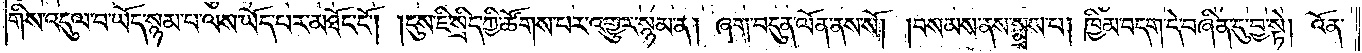གིས་འདུལ་བ་ཡོད་སྙམ་པ་ལས་ཡོད་པར་མཐོང་ངོ༌། །དུས་ཇི་སྲིད་ཀྱི་ཚོགས་པར་འགྱུར་སྙམ་ན། ཞག་བདུན་ལོན་ནས་སོ། །བསམས་ནས་སྨྲས་པ། ཁྱིམ་བདག་དེ་བཞིན་དུ་བྱ་སྟེ། འོན་
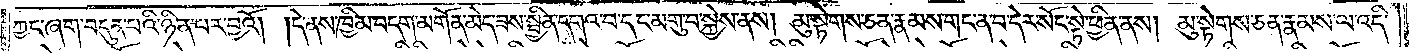ཀྱང་ཞག་བདུན་པའི་ཉིན་པར་བྱའོ། །དེ་ནས་ཁྱིམ་བདག་མགོན་མེད་ཟས་སྦྱིན་དགའ་བ་དང་མགུ་བ་སྐྱེས་ནས། མུ་སྟེགས་ཅན་རྣམས་གང་ན་བ་དེར་སོང་སྟེ་ཕྱིན་ནས། མུ་སྟེགས་ཅན་རྣམས་ལ་འདི་
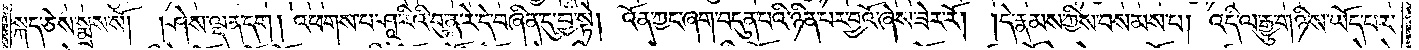སྐད་ཅེས་སྨྲས་སོ། །ཤེས་ལྡན་དག །འཕགས་པ་ཤཱ་རིའི་བུ་ན་རེ་དེ་བཞིན་དུ་བྱ་སྟེ། འོན་ཀྱང་ཞག་བདུན་པའི་ཉིན་པར་བྱའོ་ཞེས་ཟེར་རོ། །དེ་རྣམས་ཀྱིས་བསམས་པ། འདི་ལ་རྒྱུ་གཉིས་ཡོད་པར་
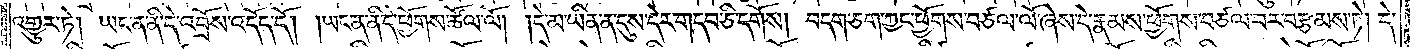འགྱུར་ཏེ། ཡང་ན་ནི་དེ་འབྲོས་འདོད་དོ། །ཡང་ན་ནི་དེ་ཕྱོགས་ཚོལ་ལོ། །དེ་མ་ཡིན་ན་དུས་དེར་གདབ་ཅི་དགོས། བདག་ཅག་ཀྱང་ཕྱོགས་བཙལ་ལོ་ཞེས་དེ་རྣམས་ཕྱོགས་བཙལ་བར་བརྩམས་ཏེ། དེ་
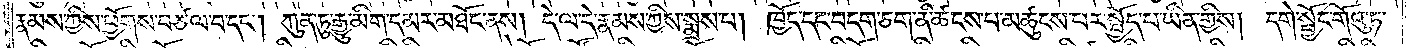རྣམས་ཀྱིས་ཕྱོགས་བཙལ་བ་དང༌། ཀུན་ཏུ་རྒྱུ་མིག་དམར་མཐོང་ནས། དེ་ལ་དེ་རྣམས་ཀྱིས་སྨྲས་པ། ཁྱོད་དང་བདག་ཅག་ནི་ཚངས་པ་མཚུངས་པར་སྤྱོད་པ་ཡིན་གྱིས། དགེ་སྦྱོང་གོའུ་ཏ་
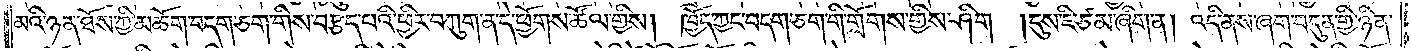མའི་ཉན་ཐོས་ཀྱི་མཆོག་བདག་ཅག་གིས་བརྩད་པའི་ཕྱིར་བཀུག་ན་དེ་ཕྱོགས་ཚོལ་གྱིས། ཁྱོད་ཀྱང་བདག་ཅག་གི་གྲོགས་གྱིས་ཤིག །དུས་ཇི་ཙམ་ཞིག་ན། འདི་ནས་ཞག་བདུན་གྱི་ཉིན་
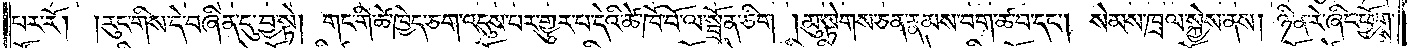པར་རོ། །རུང་གིས་དེ་བཞིན་དུ་བྱ་སྟེ། གང་གི་ཚེ་ཁྱེད་ཅག་འདུས་པར་གྱུར་བ་དེའི་ཚེ་ཁོ་བོ་ལ་སྦྲོན་ཅིག །མུ་སྟེགས་ཅན་རྣམས་བག་ཚ་བ་དང༌། སེམས་ཁྲལ་སྐྱེས་ནས། ཉིན་རེ་ཞིང་ཕྱོགས་
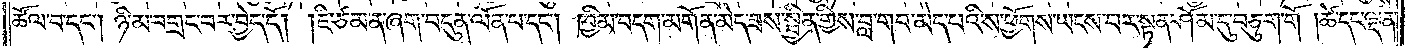ཚོལ་བ་དང༌། ཉི་མ་བགྲང་བར་བྱེད་དོ། །ཇི་ཙམ་ན་ཞག་བདུན་ལོན་པ་དང༌། ཁྱིམ་བདག་མགོན་མེད་ཟས་སྦྱིན་གྱིས་བླ་གབ་མེད་པའི་ས་ཕྱོགས་ཡངས་བར་སྟན་ཤོམ་དུ་བཅུག་གོ །ཚེ་དང་ལྡན་
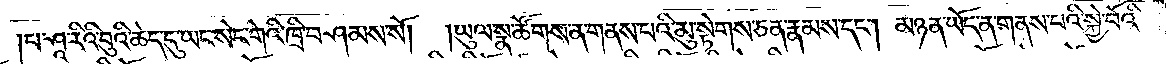པ་ཤཱ་རིའི་བུའི་ཆེད་དུ་ཡང་སེང་གེའི་ཁྲི་བཤམས་སོ།  །ཡུལ་སྣ་ཚོགས་ན་གནས་པའི་མུ་སྟེགས་ཅན་རྣམས་དང༌། མཉན་ཡོད་ན་གནས་པའི་སྐྱེ་བོའི་
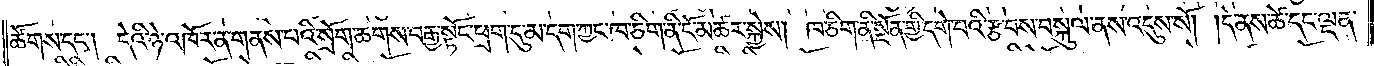ཚོགས་དང༌། དེའི་ཉེ་འཁོར་ན་གནས་པའི་སྲོག་ཆགས་བརྒྱ་སྟོང་ཕྲག་དུ་མ་དག་ཀྱང་ཁ་ཅིག་ནི་ངོ་མཚར་སྐྱེས། ཁ་ཅིག་ནི་སྔོན་གྱི་དགེ་བའི་རྩ་བས་བསྐུལ་ནས་འདུས་སོ། །དེ་ནས་ཚེ་དང་ལྡན་
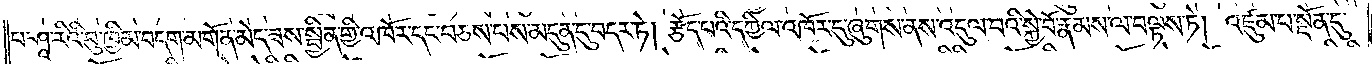པ་ཤཱ་རིའི་བུ་ཁྱིམ་བདག་མགོན་མེད་ཟས་སྦྱིན་གྱི་འཁོར་དང་བཅས་པས་མདུན་དུ་བདར་ཏེ། རྩོད་པའི་དཀྱིལ་འཁོར་དུ་ཞུགས་ནས་འདུལ་བའི་སྐྱེ་བོ་རྣམས་ལ་བལྟས་ཏེ། འཛུམ་པ་སྔོན་དུ་
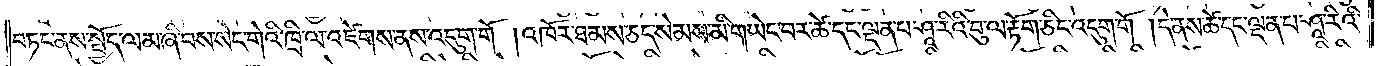བཏང་ནས་སྤྱོད་ལམ་ཞི་བས་སེང་གེའི་ཁྲི་ལ་འཛེགས་ནས་འདུག་གོ །འཁོར་ཐམས་ཅད་སེམས་མི་གཡེང་བར་ཚེ་དང་ལྡན་པ་ཤཱ་རིའི་བུ་ལ་རྟོག་ཅིང་འདུག་གོ །དེ་ནས་ཚེ་དང་ལྡན་པ་ཤཱ་རིའི་
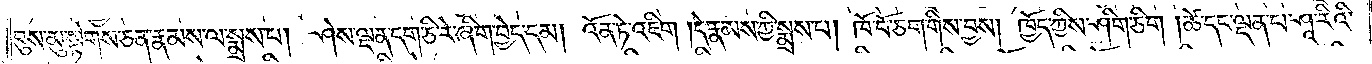བུས་མུ་སྟེགས་ཅན་རྣམས་ལ་སྨྲས་པ། ཤེས་ལྡན་དག་ཅི་རེ་ཞིག་བྱེད་དམ། འོན་ཏེ་འཇིག །དེ་རྣམས་ཀྱི་སྨྲས་པ། ཁོ་བོ་ཅག་གིས་བྱས། ཁྱོད་ཀྱིས་ཤིག་ཅིག །ཚེ་དང་ལྡན་པ་ཤཱ་རིའི་
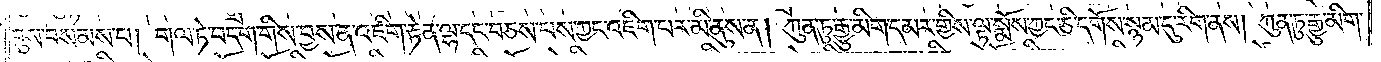བུས་བསམས་པ། གལ་ཏེ་བདག་གིས་བྱས་ན་འཇིག་རྟེན་ལྷ་དང་བཅས་པས་ཀྱང་འཇིག་པར་མི་ནུས་ན། ཀུན་ཏུ་རྒྱུ་མིག་དམར་གྱིས་ལྟ་སྨོས་ཀྱང་ཅི་དགོས་སྙམ་དུ་རིག་ནས། ཀུན་ཏུ་རྒྱུ་མིག་
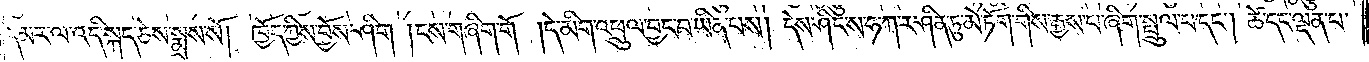དམར་ལ་འདི་སྐད་ཅེས་སྨྲས་སོ། ཁྱོད་ཀྱིས་བྱོས་ཤིག། ངས་གཞིག་གོ །དེ་མིག་འཕྲུལ་བྱང་བ་ཡིན་པས། དེས་ཤིང་ས་ཧ་ཀ་ར་ཤིན་ཏུ་མེ་ཏོག་གིས་རྒྱས་པ་ཞིག་སྤྲུལ་པ་དང༌། ཚེ་དང་ལྡན་པ་
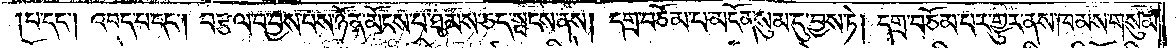པ་དང༌། འབད་པ་དང༌། བརྩལ་བ་བྱས་པས་ཉོན་མོངས་པ་ཐམས་ཅད་སྤངས་ནས། དགྲ་བཅོམ་པ་མངོན་སུམ་དུ་བྱས་ཏེ། དགྲ་བཅོམ་པར་གྱུར་ནས་ཁམས་གསུམ་
